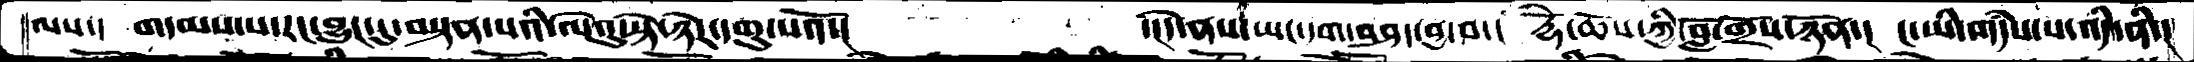ལས་།    གདམས་པ་རང་བྱུང་དུ་བསྟན་པའི་ལེའུ་སྟེ་ཉེར་དགུ་པའོ་།       ་།དེ་ནས་ཡང་དག་བཤད་བྱ་བ་།  རྡོ་ེཆོས་ཀྱི་བློ་གྲོས་ཉོན་།  ང་ཡི་གདཾས་པ་འདི་ནི་།
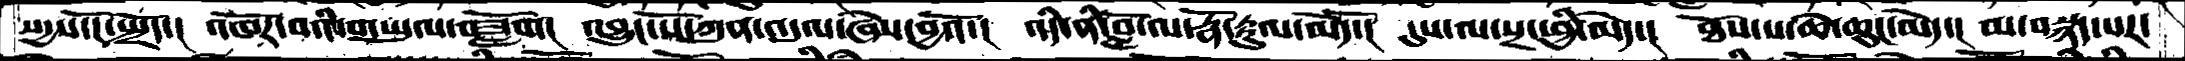སདྱས་ངོ་སྤྲོད་།  འཁོར་བའི་གཡུལ་བཟློག།  འབྱུང་པོ་ཀུན་འདུལ་ཞེས་བྱའོ་། འདི་ནི་བློ་ལ་རྣོ་རྟུལ་མེད་ོ།  དུས་ལ་སྲང་ཕྱི་མེད་།  ཐོས་པ་ཆེ་ཆུང་མེད་།  མ་བསྙད་པར་
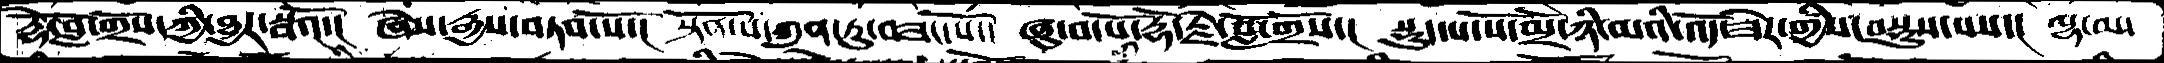རྡོཻ་བློ་གྲོས་ཀྱི་ཐྱར་སྦའོ་།  ཞེས་རྒྱས་བཏབ་པོ་།  སྟོན་པ་ཀུན་ཏུ་བཟང་པོ་།  ཞུ་བ་པོ་རྡོ་རྗེ་བློ་གྲོས་།  སྡུད་པ་པོ་མྲོ་ཉི་མའི་འོད་ཟེར་གྱིས་བསྡུས་པས་།  ལྷ་ལ་
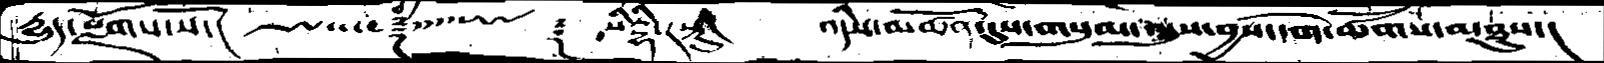དྱུད་སྫོགས་སོ་།       ༒    ༈ སིཏྡྷི་རསྟུ།  འདིས་མཚོན་དུས་གསུམ་འདུས་བྱས་དགེ་ཚོགས་མཐུས་།
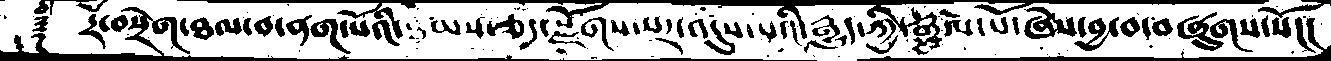༈  རོ་བསྲེག་ཐལ་བ་ནག་པོའི་ཐམས་ཅད་སྫོགས་པར་འདུས་པའི་རྒྱུད་ཀྱི་རྒྱལ་པོ་ཞེས་བྱ་བ་བཞུགས་སོ།།།
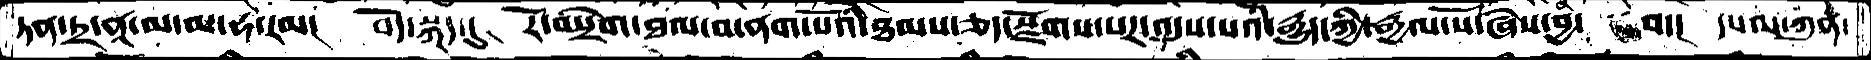ཏན་ཏྲ་ནཱ་མ་མ་ཧ་རམ།  བོད་སྐད་དུ།  རོ་བསྲེག་ཐལ་བ་ནག་པོའི་ཐམས་ཅད་སྫོགས་པར་འདུས་པའི་རྒྱུད་ཀྱི་རྒྱལ་པོ་ཞེས་བྱ་བ་།   དཔལ་ཀུན་
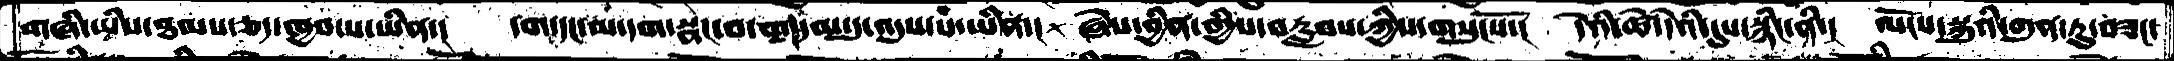གཞི་ཡིས་ཐམས་ཅད་ཁྱབ་པ་ཡིན་།  དག་དང་མ་དག་སྣང་བ་གསུམ་དུ་འདུས་པ་ཡིན་།  ཞེས་བྱིན་གྱིས་བརླབས་ཀྱིས་གསུངསོ་།  དེའི་ཚེ་དེའི་དུས་སྙིང་ནི་།  ལོངས་སྐུའི་ཀུན་ཏུ་བཟང་
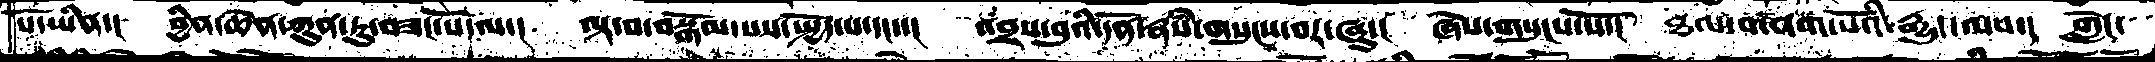པོ་ཡིན་།  བྱིན་ཆེན་ཀུན་ཏུ་བཟང་པོ་ལ་།  ལྟ་བ་བསྒོམ་པས་སྤྱོད་པ་དང་་།  འབྲས་བུའི་དོན་རྣཾས་གསུངས་བར་ཞུ་།  ཞེས་གསུངས་སོ་།  ཐལ་བ་ནག་པོའི་རྒྱུད་ལས་།  གླེང་
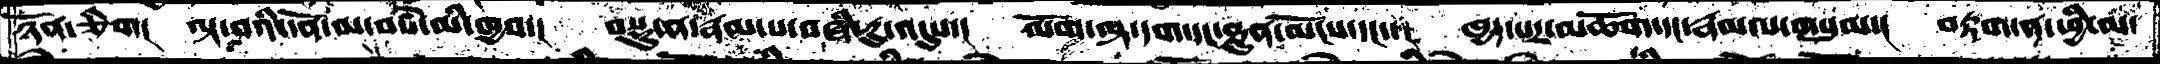ཉོན་ཅིག།  ལྟ་བའི་དོན་ལ་བསཾ་མི་ཁྱབ་།  བསྡུ་ན་རྣམ་པ་བཞི་རུ་འདུས་།  ལོག་ལྟ་དག་དང་ཐུན་མོངས་དང་་།  ཁྱད་པར་མཆོག་དང་རྣམ་པ་གསུམ་།  བརྟག་ན་ཕྱི་མ་
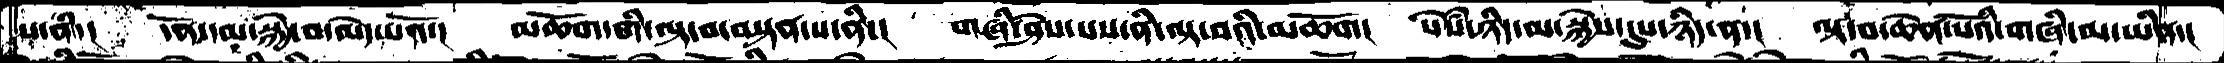པ་ནི་།  དོན་དམ་སྐྱེ་བ་མེད་པའོ་།  མཆོག་གི་ལྟ་བ་བསྟན་པ་ནི་།  གཞི་ཤེས་པས་ནི་ལྟ་བའི་མཆོག།  སེཾས་ཉིད་མ་སྐྱེས་དུས་ཉིད་ན་།  ལྟ་བ་ཆེན་པོའི་གཞི་མ་ཡིན་།
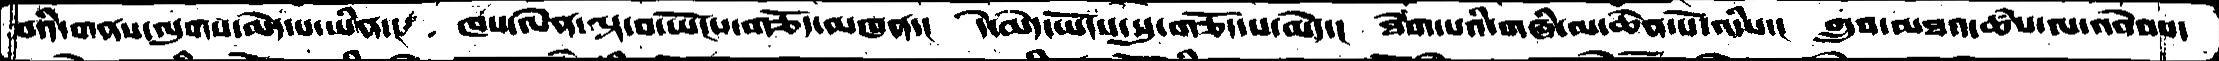བའི་གནས་ལུགས་མེད་པ་ཡིན་།  ཁས་ལེན་ལྟ་བ་ཡོངས་གཅོད་མཁན་།  དེ་མེད་ཡོངས་སུ་གཅོད་པ་མེད་།  ཐེག་པའི་གཞི་མ་ཆེན་པོ་འདིས་།  གྲུབ་མཐའ་ཚཾས་ལ་འབེབས་
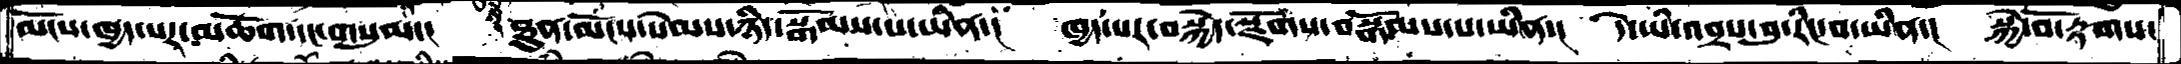མོངས་ཁྱད་པར་མཆོག་དང་གསུམ་།  ཐུན་མོངས་སེམས་ཉིད་སྒོམས་པ་ཡིན་།  ཁྱད་པར་བསྐྱེད་སྫོགས་བསྒོམས་པ་ཡིན་།  དེ་ཡི་འབྲས་བུ་རིང་པ་ཡིན་།  སྐྱེ་བོ་རྟོགས་
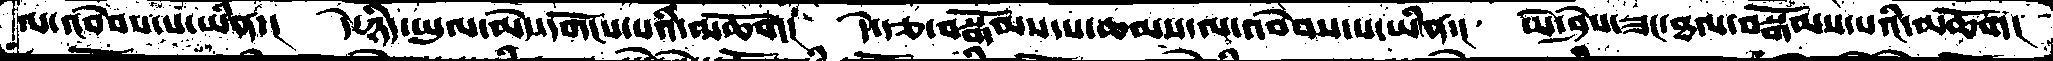ལ་འབེབས་པ་ཡིན་།  དེ་ཉིད་ཡུལ་མེད་དགོངས་པའི་མཆོག།  དེ་རྩ་བསྒོམས་པ་ཆམས་ལ་འབེབས་པ་ཡིན་།  མི་ཤེས་ཟང་ཐལ་བསྒོམས་པའི་མཆོག།
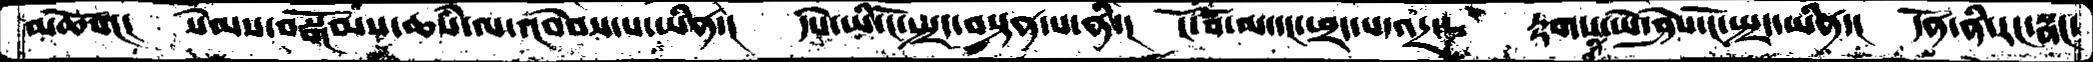མཆོག།  སེམས་བསྒོམས་ཆཾས་ལ་འབེབས་པ་ཡིན་།  དཔེ་ཡི་ངོ་སྤྲད་བསྟན་པ་ནི་།  ངོ་བོ་མ་དང་འཕྲད་པ་འདྲ་།  རྟགསུ་ཡེ་ཤེས་ངོ་སྤྲད་ཡིན་།  དོན་ནི་རང་སྣང་
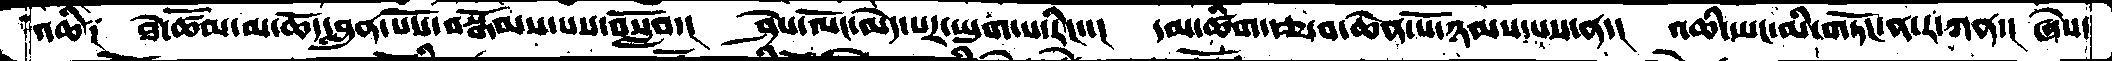འཆི༑   ཐེ་ཚོམ་མ་ཆོད་བླུན་པོས་བསྒོམས་པས་བསློབ་།   ཤེས་ལོང་མེད་པར་ཡུག་པ་རིང་་།  དམ་ཚིག་རྩ་བ་ཆེན་པོ་ཉམས་པས་ན་།  འཆི་ཡང་མི་གཏོང་ན་ར་ཀན་།  ཞེས་
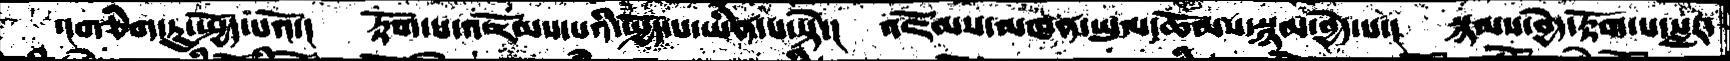་།གཅིག་ཏུ་སྤྱོད་པའོ་།  རྟོག་པ་འཇོམས་པའི་སྤྱོད་པ་ཡིན་པ་སྟེ་། འཇོམས་མཁན་ཡུལ་ཆོམས་སྙམ་བྱེད་པ་།  སྙམས་བྱེད་རྟོག་པ་སླར་
